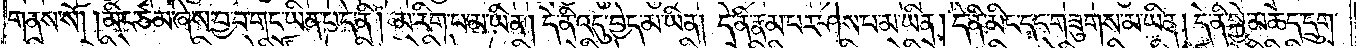གནས་སོ། །མིང་ཙམ་ཞེས་བྱ་བ་གང་ཡིན་པ་དེ་ནི། མ་རིག་པ་མ་ཡིན། དེ་ནི་འདུ་བྱད་མ་ཡིན། དེ་ནི་རྣམ་པར་ཤེས་པ་མ་ཡིན། དེ་ནི་མིང་དང་གཟུགས་མ་ཡིན། དེ་ནི་སྐྱེ་མཆེད་དྲུག་
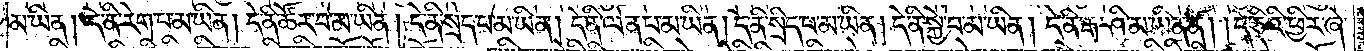མ་ཡིན། དེ་ནི་རེག་པ་མ་ཡིན། དེ་ནི་ཚོར་བ་མ་ཡིན། དེ་ནི་སྲེད་པ་མ་ཡིན། དེ་ནི་ལེན་པ་མ་ཡིན། དེ་ནི་སྲིད་པ་མ་ཡིན། དེ་ནི་སྐྱེ་བ་མ་ཡིན། དེ་ནི་རྒ་ཤི་མ་ཡིན་ནོ། །དེ་ཅིའི་ཕྱིར་ཞེ་
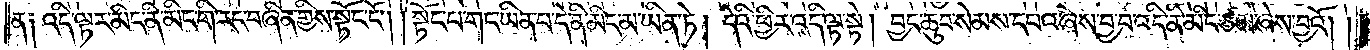ན། འདི་ལྟར་མིང་ནི་མིང་གི་རང་བཞིན་གྱིས་སྟོང་ངོ༌། །སྟོང་པ་གང་ཡིན་པ་དེ་ནི་མིང་མ་ཡིན་ཏེ། དེའི་ཕྱིར་འདི་ལྟ་སྟེ། བྱང་ཆུབ་སེམས་དཔའ་ཞེས་བྱ་བ་འདི་ནི་མིང་ཙམ་ཞེས་བྱའོ། །
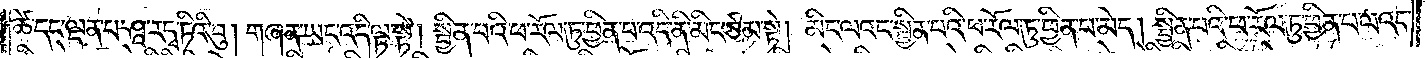ཚེ་དང་ལྡན་པ་ཤཱ་ར་དྭ་ཏིའི་བུ། གཞན་ཡང་འདི་ལྟ་སྟེ། སྦྱིན་པའི་ཕ་རོལ་ཏུ་ཕྱིན་པ་འདི་ནི་མིང་ཙམ་སྟེ། མིང་ལའང་སྦྱིན་པའི་ཕ་རོལ་ཏུ་ཕྱིན་པ་མེད། སྦྱིན་པའི་ཕ་རོལ་ཏུ་ཕྱིན་པ་ལའང་
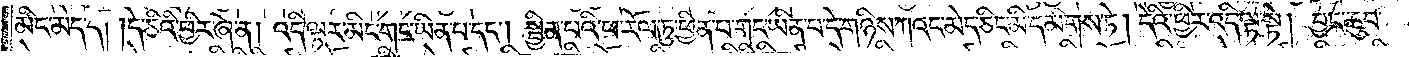མིང་མེད་དོ། །དེ་ཅིའི་ཕྱིར་ཞེ་ན། འདི་ལྟར་མིང་གང་ཡིན་པ་དང༌། སྦྱིན་པའི་ཕ་རོལ་ཏུ་ཕྱིན་པ་དེ་གཉིས་ཀའང་མེད་ཅིང་མི་དམིགས་ཏེ། དེའི་ཕྱིར་འདི་ལྟ་སྟེ། བྱང་ཆུབ་
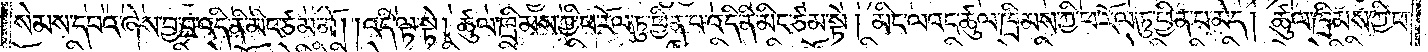སེམས་དཔའ་ཞེས་བྱ་བ་འདི་ནི་མིང་ཙམ་མོ། །འདི་ལྟ་སྟེ་ཚུལ་ཁྲིམས་ཀྱི་ཕ་རོལ་ཏུ་ཕྱིན་པ་འདི་ནི་མིང་ཙམ་སྟེ། མིང་ལའང་ཚུལ་ཁྲིམས་ཀྱི་ཕ་རོལ་ཏུ་ཕྱིན་པ་མེད། ཚུལ་ཁྲིམས་ཀྱི་ཕ་
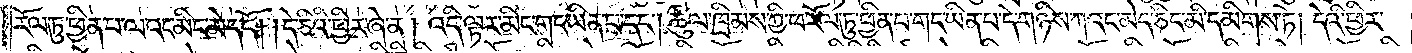རོལ་ཏུ་ཕྱིན་པ་ལའང་མིང་མེད་དོ། །དེ་ཅིའི་ཕྱིར་ཞེ་ན། འདི་ལྟར་མིང་གང་ཡིན་པ་དང༌། ཚུལ་ཁྲིམས་ཀྱི་ཕ་རོལ་ཏུ་ཕྱིན་པ་གང་ཡིན་པ་དེ་གཉིས་ཀའང་མེད་ཅིང་མི་དམིགས་ཏེ། དེའི་ཕྱིར་
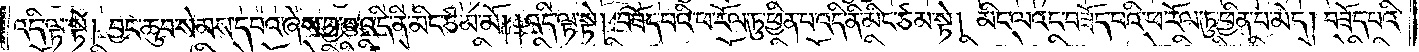འདི་ལྟ་ལྟེ། བྱང་ཆུབ་སེམས་དཔའ་ཞེས་བྱ་བ་འདི་ནི་མིང་ཙམ་མོ། འདི་ལྟ་སྟེ། བཟོད་པའི་ཕ་རོལ་ཏུ་ཕྱིན་པ་འདི་ནི་མིང་ཙམ་སྟེ། མིང་ལའང་བཟོད་པའི་ཕ་རོལ་ཏུ་ཕྱིན་པ་མེད། བཟོད་པའི་
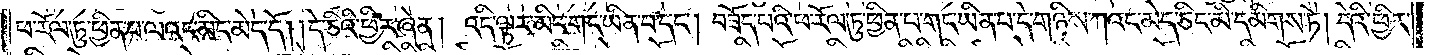ཕ་རོལ་ཏུ་ཕྱིན་པ་ལའང་མིང་མེད་དོ། །དེ་ཅིའི་ཕྱིར་ཞེ་ན། འདི་ལྟར་མིང་གང་ཡིན་པ་དང༌། བཟོད་པའི་ཕ་རོལ་ཏུ་ཕྱིན་པ་གང་ཡིན་པ་དེ་གཉིས་ཀའང་མེད་ཅིང་མི་དམིགས་ཏེ། དེའི་ཕྱིར་
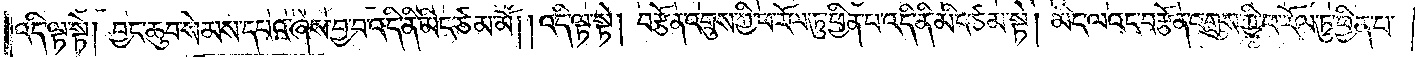འདི་ལྟ་སྟེ། བྱང་ཆུབ་སེམས་དཔའ་ཞེས་བྱ་བ་འདི་ནི་མིང་ཙམ་མོ། །འདི་ལྟ་སྟེ། བརྩོན་འགྲུས་ཀྱི་ཕ་རོལ་ཏུ་ཕྱིན་པ་འདི་ནི་མིང་ཙམ་སྟེ། མིང་ལའང་བརྩོན་འགྲུས་ཀྱི་ཕ་རོལ་ཏུ་ཕྱིན་པ་
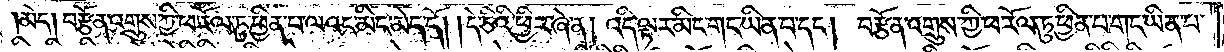མེད། བརྩོན་འགྲུས་ཀྱི་ཕ་རོལ་ཏུ་ཕྱིན་པ་ལའང་མིང་མེད་དོ། །དེ་ཅིའི་ཕྱིར་ཞེ་ན། འདི་ལྟར་མིང་གང་ཡིན་པ་དང༌། བརྩོན་འགྲུས་ཀྱི་ཕ་རོལ་ཏུ་ཕྱིན་པ་གང་ཡིན་པ་
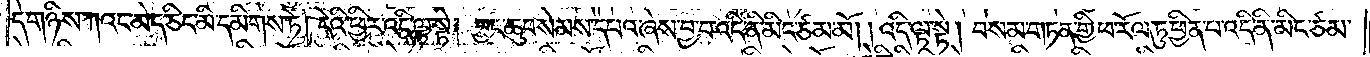དེ་གཉིས་ཀའང་མེད་ཅིང་མི་དམིགས་ཏེ། དེའི་ཕྱིར་འདི་ལྟ་སྟེ། བྱང་ཆུབ་སེམས་དཔའ་ཞེས་བྱ་བ་འདི་ནི་མིང་ཙམ་མོ། །འདི་ལྟ་སྟེ། བསམ་གཏན་གྱི་ཕ་རོལ་ཏུ་ཕྱིན་པ་འདི་ནི་མིང་ཙམ་
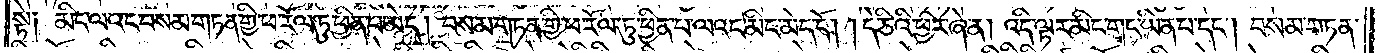སྟེ། མིང་ལའང་བསམ་གཏན་གྱི་ཕ་རོལ་ཏུ་ཕྱིན་པ་མེད། བསམ་གཏན་གྱི་ཕ་རོལ་ཏུ་ཕྱིན་པ་ལའང་མིང་མེད་དོ། །དེ་ཅིའི་ཕྱིར་ཞེ་ན། འདི་ལྟར་མིང་གང་ཡིན་པ་དང༌། བསམ་གཏན་
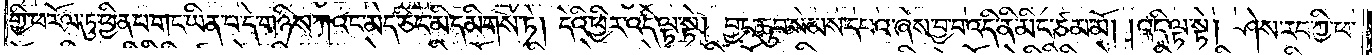གྱི་ཕ་རོལ་ཏུ་ཕྱིན་པ་གང་ཡིན་པ་དེ་གཉིས་ཀའང་མེད་ཅིང་མི་དམིགས་ཏེ། དེའི་ཕྱིར་འདི་ལྟ་སྟེ། བྱང་ཆུབ་སེམས་དཔའ་ཞེས་བྱ་བ་འདི་ནི་མིང་ཙམ་མོ། །འདི་ལྟ་སྟེ། ཤེས་རབ་ཀྱི་ཕ་
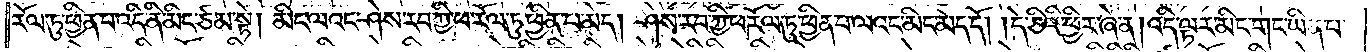རོལ་ཏུ་ཕྱིན་པ་འདི་ནི་མིང་ཙམ་སྟེ། མིང་ལའང་ཤེས་རབ་ཀྱི་ཕ་རོལ་ཏུ་ཕྱིན་པ་མེད། ཤེས་རབ་ཀྱི་ཕ་རོལ་ཏུ་ཕྱིན་པ་ལའང་མིང་མེད་དོ། །དེ་ཅིའི་ཕྱིར་ཞེ་ན། འདི་ལྟར་མིང་གང་ཡིན་པ་
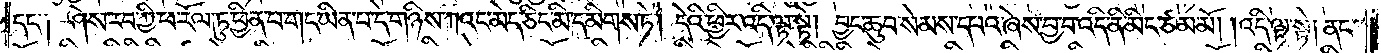དང༌། ཤེས་རབ་ཀྱི་ཕ་རོལ་ཏུ་ཕྱིན་པ་གང་ཡིན་པ་དེ་གཉིས་ཀའང་མེད་ཅིང་མི་དམིགས་ཏེ། དེའི་ཕྱིར་འདི་ལྟ་སྟེ། བྱང་ཆུབ་སེམས་དཔའ་ཞེས་བྱ་བ་འདི་ནི་མིང་ཙམ་མོ། །འདི་ལྟ་སྟེ། ནང་
